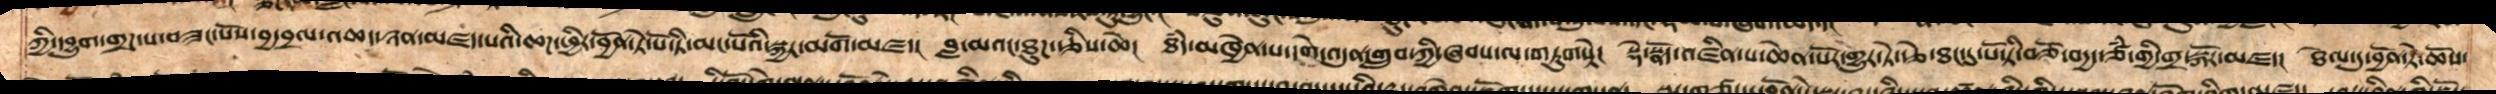ཀྱི་དབྱུག་གྲཌ་པ་བཟང་པོས་བྱ་བྲལ་འཆད་ཉན་མཛད་པའི་ཆཌ་ཕྱིར་བྱོན་ཏེ་པོ་ཏི་མང་པོའི་སྐྱར་མགོ་མཛད། བླ་མའང་ཐུཌ་རྩིས་ཆེ། ཐཾད་མཁྱེན་པ་དགེ་འདུན་གྲུབ་ཀྱི་ཞབས་ལ་གཏུགསྟེ། སྡེ་སྣོད་འཛིན་པ་ཆེན་པོར་གྱུར་ཏེ་རྩེ་ཐང་དུ་པོ་ཏི་བཅོ་བདྱད་ཙཾ་གྱི་གྲྭ་སྐོར་མཛད། ཐེལ་དུ་བྱོན་ཏེ་ཆོས
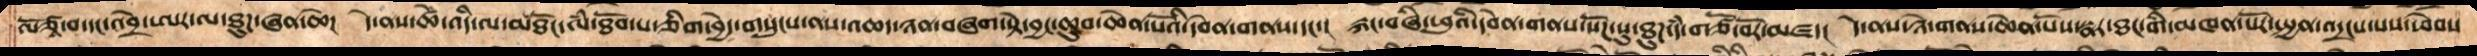ལོ་ཙཱ་བ་དང་འབྲེ་ཨར་ལ་ཐུཌ་ཞན་ཆེ།  དེ་ནས་ཚེ་འདི་ལ་མཐོང་ལཾ་ཐོབ་པ་ཅིག་བྱེད་གསུངས་ནས་འཆད་ཉན་བཞག་སྟེ་བྱང་ཆུབ་ཆེན་པོའི་དབེན་གནས་དང་།  རྐང་བཞི་ཕུའི་དབེན་གནས་སོཌ་སུ་ཐུཌ་དཾ་གཙོ་བོར་མཛད།  དེ་ནས་ཉེ་གནས་ཆེན་པོས་སྣར་ཐང་གི་མཁན་པོར་སྤྱན་འདྲངས་པས་ཕེབས
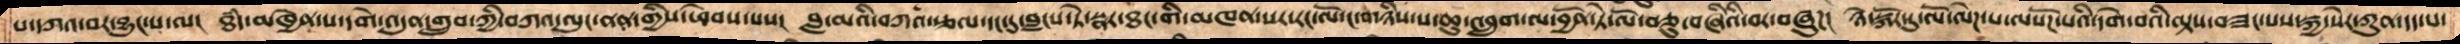པ་དཀའ་བར་བྱུང་པ་ལ།  ཐཾད་མཁྱེན་པ་དགེ་འདུན་གྲུབ་ཀྱི་བཀའ་ལུང་ནན་གྱིས་ཕེབས་པས།  བླ་མའི་བཀའ་རྩལ་དང་དུ་བླངས་ཏེ་སྣར་ཐང་གི་མཁན་སར་རང་ལོ་ང་གཉིས་ས་ཆུ་འབྲུག་ལ་བྱོན་ཏེ་ལོ་བཅུ་བཞིའི་བར་བཞུཌ།  ཉེ་སྐོར་དུ་ལོ་ལེཌ་པ་ལསོཌ་པའི་དགེ་བའི་ལྟས་བཟང་པས་སྐྱ་སེར་ཀུན་དད་པ་
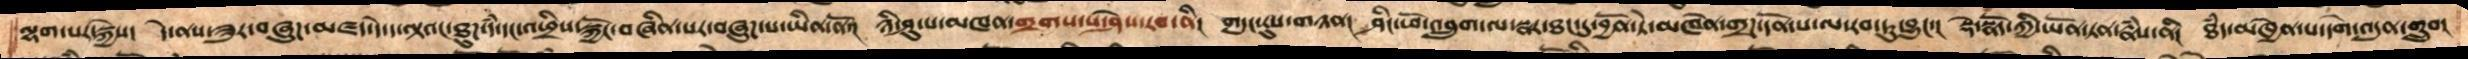ལྷག་པར་སྐྱེས།  དེ་ནས་ཟུར་བཞུཌ་མཛད་དེ་ད་ལྟའང་ཐུཌ་དཾ་དང་འཕྲིས་སྐྱོང་བཞིན་པར་བཞུཌ་པ་ཡིན་ནོ་།  ཉི་ཤུ་པ་མཁན་གྲགས་པ་ཤེས་རབ་ནི།  གདུང་རུས་གཉན།  ཤིང་ཕོ་འབྲུག་ལ་སྣར་ཐང་དུ་བྱོན་ཏེ་མཁེན་གྲཌ་དོན་པ་ལ་རབ་ཏུ་བྱུང་།  སྡེ་སྣོད་ཀྱི་ཡོན་ཏན་རྣཾས་ནི།  ཐཾད་མཁྱེན་པ་དགེ་འདུན་གྲུབ།
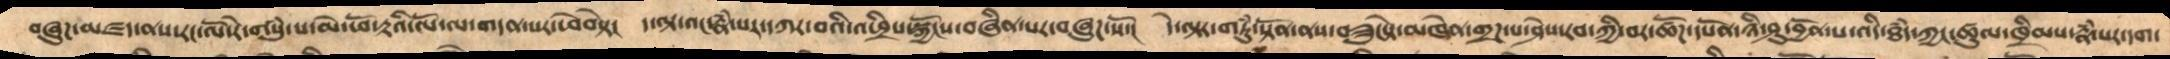བཞུཌ་མཛད་ནས་རང་ལོ་རེ་གསུཾ་པ་མེ་ཕོ་རྟའི་ལོ་ལ་གདན་སར་ཕེབསྟེ།  ད་ལྟ་འང་རྣཾ་པར་དཀར་བའི་འཕྲིས་སྐྱོང་བཞིན་པར་བཞུཌ་སོ་།  དེ་ལྟར་གཏུཾ་སྟོན་ནས་བཟུངསྟེ་མཁེན་གྲཌ་པ་ཤེས་རབ་ཀྱི་བར་ཚོཌ་དཔོན་ཉི་ཤུ་བྱོན་པ་འདི་ཐཾད་ཀྱང་ཚུལ་ཁྲིམས་རྣཾ་པར་དག་
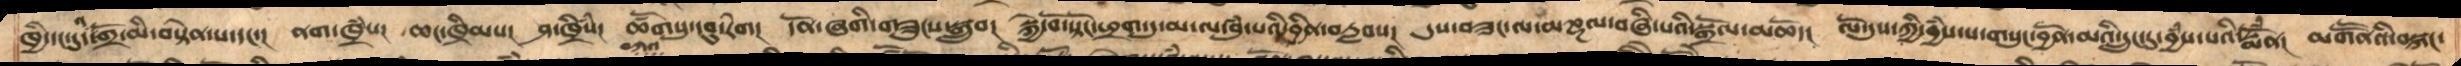ཁྱི་དང་དུད་འགྲོ་མི་བསྟེན་པ་དང་། ནག་ཁྲཾས། ཆང་ཁྲིམས། ཤ་ཁྲིཾས། ཚོགསུ་དབུ་རེག  དོན་ཞགི་གཟུངས་སྒྲུབ། སྐྱེ་བོ་སྟོང་ཕྲག་དུ་མ་ལ་བུཾ་པའི་བྱིན་བརླབས། དུས་བཟང་ལ་མཎྜལ་བཞི་པའི་སྒྲོལ་མཆོད། ལོ་དུས་ཀྱི་བྱཾས་པ་གསུང་བྱོན་མའི་དྲུང་དུ་བྱཾས་པའི་སྨོཾན། མགཽནའི་བསྐང་
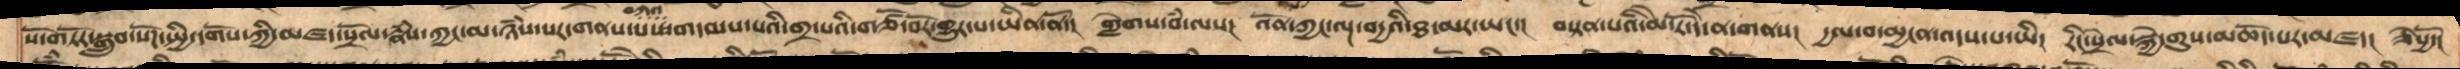སོ་གཏོར་སྒྲུབ་སོཌ་སྤྱི་དགོས་ཀྱི་མཛད་སྲོལ་རྣཾས་ཀྱང་མ་ཉཾས་པར་གནས་པས་བཀའ་གདམས་པའི་གྲ་པའི་གཙོ་བོར་གྱུར་པ་ཡིན་ནོ་།  གླེགས་བཾ་ལས།  འོན་ཀྱང་ལྔ་བདྱའི་ཐ་མར་ཡང་།  བསྟན་པའི་མེ་རོ་དེ་ན་གནས།  དྱལ་བ་མྱངན་འདས་པ་ཡི།  རིང་སྲེལ་སྐྱེ་གུས་མཆོད་པར་མཛད།  ཅེསྱོ་།
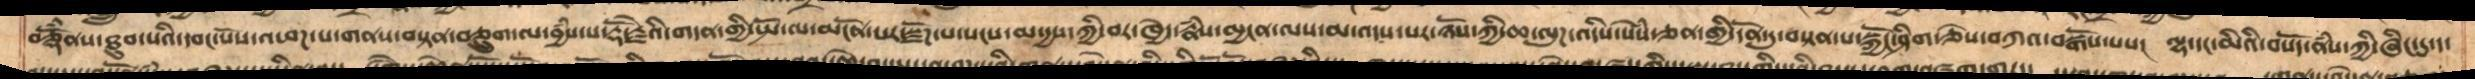བཅྡོཾནས་ཐུབ་པའི་དབང་པོས་འཕཌ་པ་གནས་བསྟན་བཅྲུག་ལ་བྱཾས་པ་རྡོ་རྗེའི་གདན་ཀྱི་སྤོ་ལ་མངོན་པར་སྫོཌ་པ་སངས་མ་དྱས་ཀྱི་བར་ཁྱེད་རྣཾས་མྱངན་ལས་མ་འདས་པར་ཉོས་ཀྱི་ཆ་ལུཌ་འདིས་སེཾས་ཅན་གྱི་དོན་དུ་བསྟན་པ་སྐྱོང་ཤིག་ཅེས་བཀའ་བསྒོས་པས།  ལྷ་དང་མིའི་བསོད་ནཾས་ཀྱི་ཞིང་དུ་ད་
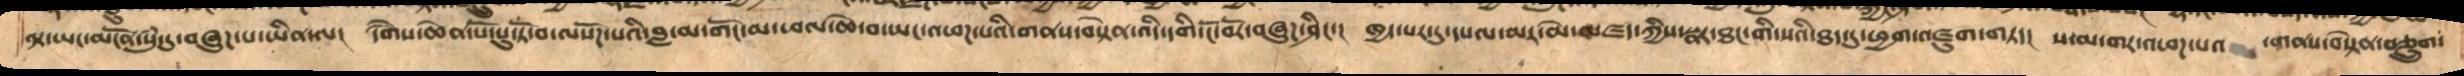ལྟ་ཡང་མདོན་སུཾ་དུ་བཞུཌ་པ་ཡིན་ལ།  དགཻས་ཆེན་པོ་པུ་ཏོ་བ་ལསོཌ་པའི་བླ་མ་གོང་མ་ཕལ་ཆེ་བ་ཡང་འཕཌ་པའི་གནས་བསྟེན་འདི་དགི་ངོ་བོར་བཞུཌ་ཤིང་།  ཁྱད་པར་དུ་དཔལ་མར་མེ་མཛད་ཀྱིས་སྣར་ཐང་གི་སའི་ཐད་དུ་ཕྱག་འཛུག་གཏད།  ས་མ་གར་འཕཌ་པའི་ ་གནས་བསྟེན་བཅྲུག་
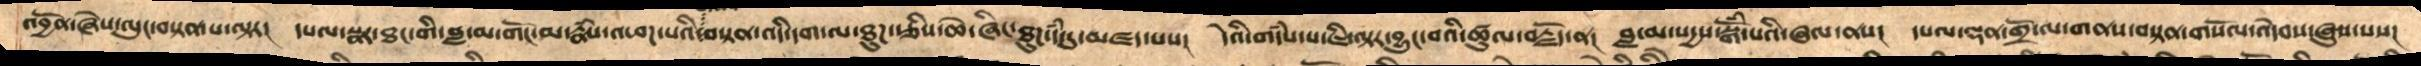འབྱོན་ཞེས་ལུང་བསྟན་པ་ལྟར།  དཔལ་སྣར་ཐང་པའི་བླ་མ་གོང་མ་རྣཾས་འཕཌ་པའི་བསྟན་འདི་དག་ལ་ཐུཌ་རྩིས་ཆེ་ཞིང་ཐུཌ་དཾ་དུ་མཛད་པས།  དེའི་གདཾས་པ་ཇི་ལྟར་བྱུང་བའི་ཚུལ་བརྗོད་ན།  བླ་མ་སདྱས་སྒོཾ་པའི་ཞལ་ནས།  དཔལ་ལྡན་གྲོ་ལ་གནས་བསྟན་གསོལ་འདེབས་ཞུས་པས།
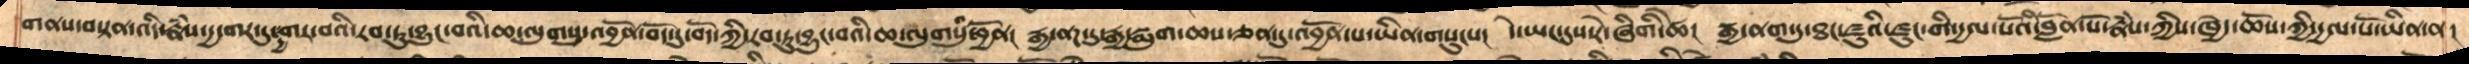གནས་བསྟན་འདི་རྣཾས་དྱ་གར་དུ་དྱ་གར་བའི་རབ་ཏུ་བྱུང་བའི་ཆ་ལུགསུ་འབྱོན་བོད་དུ་བོད་ཀྱི་རབ་ཏུ་བྱུང་བའི་ཆ་ལུགསུ་བྱོན།  རྒྱ་ནཌ་དུ་རྒྱ་སྨུག་ཆས་ཅན་དུ་འབྱོན་པ་ཡིན་གསུངས།  དེ་ཡང་དུས་རེ་ཞིགི་ཚེ།  རྒྱ་ནག་དུ་ཐང་ཛུའི་ཛུང་གི་དྱལ་པོའི་བློན་པོ་རྣཾས་ཀྱིས་ཁྱེད་ཆོས་ཀྱི་དྱལ་པོ་ཡིན་ན།
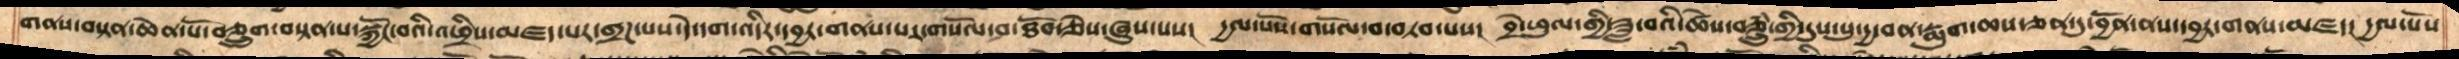གནས་བསྟན་ཆེན་པོ་བཅྲུག་བསྟན་པ་སྐྱོང་བའི་འཕྲིས་མཛད་པར་གྲཌ་པས་དེ་དག་འདིར་དབྱར་གནས་པར་གསོལ་བ་ཐོབ་ཅེས་ཞུས་པས།  དྱལ་པོས་གསོལ་བ་བཏབ་པས།  བྲེ་ཕུལ་གྱི་ཟླ་བའི་ཚེས་བཅྲུཾ་གྱི་དུས་སུ་དྱ་བན་རྨུག་ཆས་ཅན་དུ་བྱོན་ནས་དབྱར་གནས་མཛད།  དྱལ་པོས་
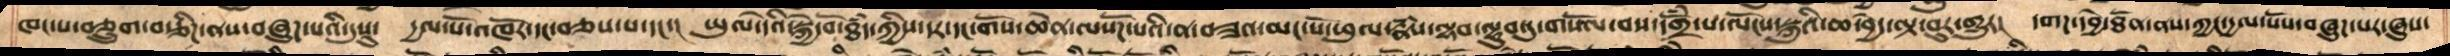ཁང་པ་བཅྲུག་བརྩིཌ་ནས་བཞུཌ་པའི་དུསུ་  དྱལ་པོ་འཁོར་དང་བཅས་པ་དང་།  ཡུལ་དེའི་སྐྱེ་བོ་ཐཾད་ཀྱིས་དར་དང་གོས་ཆེན་ལ་སོཌ་པའི་ན་བཟའ་མང་པོ་ཕུལ་རྣཾས་ལྷབ་ལྷུབ་དུ་གསལ་བས་དགྲོཾ་པ་ལོངས་སྐུའི་ཆ་བྱེད་ལྟ་བུར་གྱུར།  དགཌ་དབྱེ་ཐོན་ནས་ཀྱང་དྱལ་པོས་བཞུཌ་པར་ཞུས་
